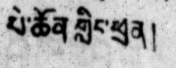པེ་ཆོན་གླིང་ཕྲན།
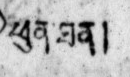ཕུན་ཐན།
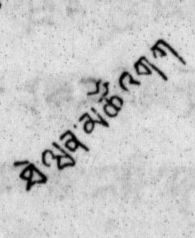ཐེ་ཝན་མཚོ་འགག
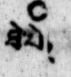ཐེ་པེ།
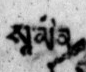སཱ་མིན།
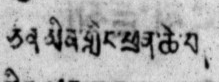ཅིན་མིན་གླིང་ཕྲན་ཆེ་བ།ཅི་མིན་གླིང་ཕྲན་ཆེ་བ།
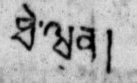ཐེ་ཝན།
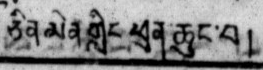ཅིན་མིན་གླིང་ཕྲན་ཆུང་བ།
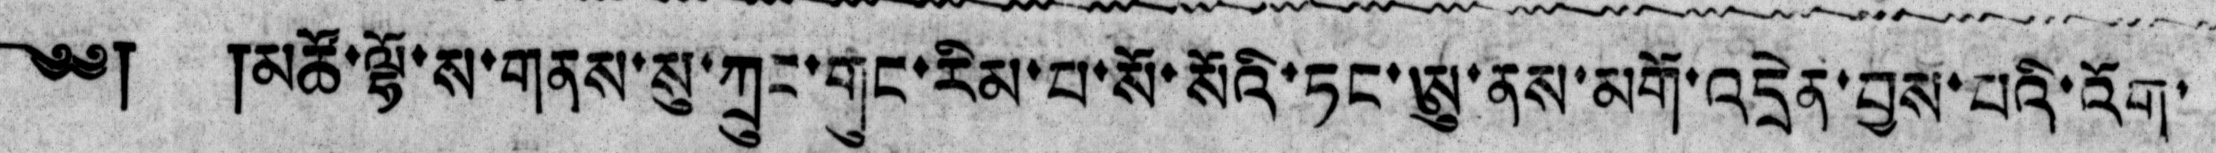༄༅། །མཚོ་ལྷོ་ས་གནས་སུ་ཀྲུང་གུང་རིམ་པ་སོ་སོའི་ཏང་ཨུ་ནས་མགོ་འདྲེན་བྱས་པའི་འོག་
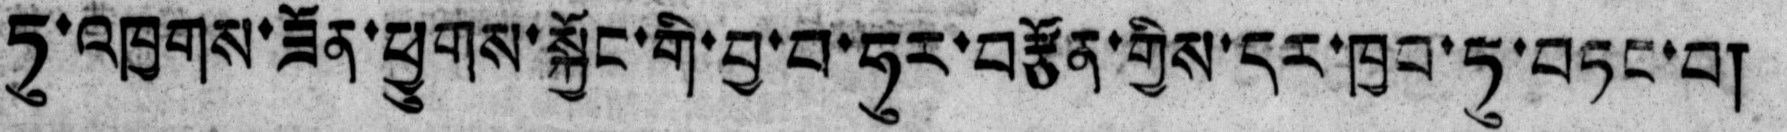ཏུ་འཁྱགས་ཟོན་ཕྱུགས་སྐྱོང་གི་བྱ་བ་ཧུར་བརྩོན་གྱིས་དར་ཁྱབ་ཏུ་བཏང་བ།
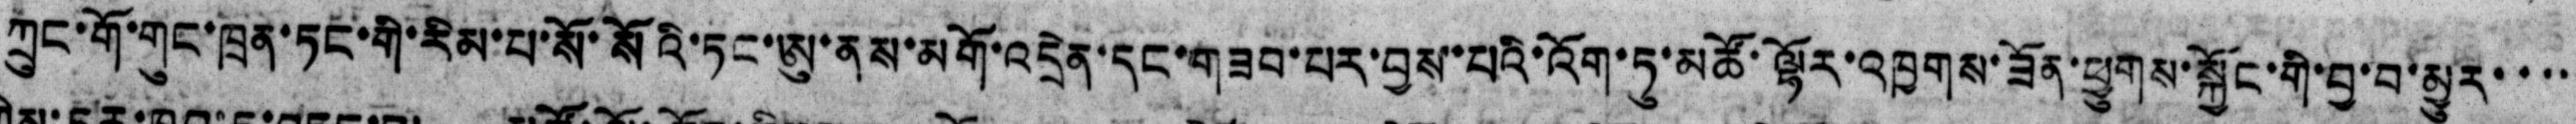ཀྲུང་གོ་གུང་ཁྲན་ཏང་གི་རིམ་པ་སོ་སོའི་ཏང་ཨུ་ནས་མགོ་འདྲེན་དང་གཟབ་པར་བྱས་པའི་འོག་ཏུ་མཚོ་ལྷོར་འཁྱགས་ཟོན་ཕྱུགས་སྐྱོང་གི་བྱ་བ་མྱུར་་་
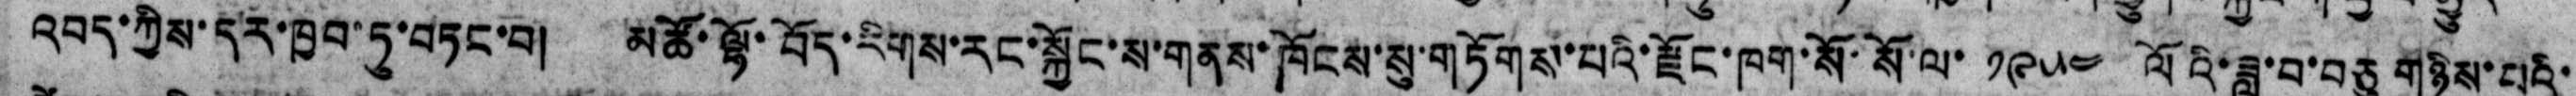འབད་ཀྱིས་དར་ཁྱབ་ཏུ་བཏང་བ། མཚོ་ལྷོ་བོད་རིགས་རང་སྐྱོང་ས་གནས་ཁོངས་སུ་གཏོགས་པའི་རྫོང་ཁག་སོ་སོ་ལ་ ༡༩༥༤ ལོའི་ཟླ་བ་བཅུ གཉིས་པའི་
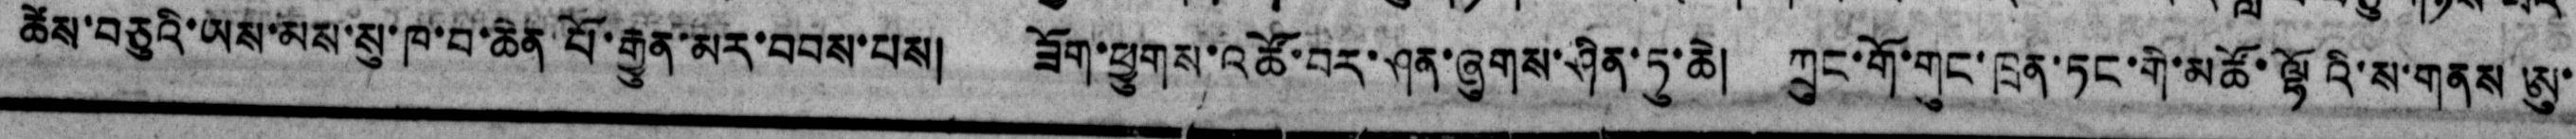ཚེས་བཅུའི་ཡས་མས་སུ་ཁ་བ་ཆེན་པོ་རྒྱུན་མར་བབས་པས། ཟོག་ཕྱུགས་འཚོ་བར་ཤན་ཞུགས་ཤིན་ཏུ་ཆེ། ཀྲུང་གོ་གུང་ཁྲན་ཏང་གི་མཚོ་ལྷོའི་ས་གནས ཨུ་
